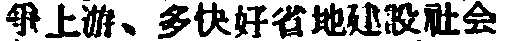爭上游、多快好省地建設社会
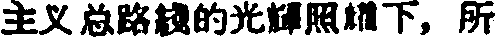主义总路綫的光輝照耀下，所
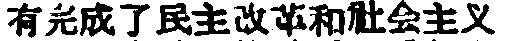有完成了民主改革和社会主义
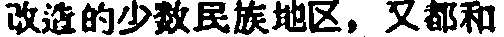改造的少数民族地区，又都和
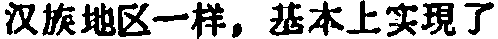汉族地区一样，基本上实現了
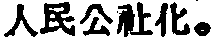人民公社化。
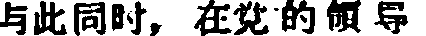与此同时，在党的領导
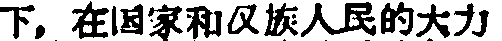下，在国家和汉族人民的大力
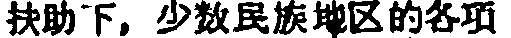扶助下，少数民族地区的各項
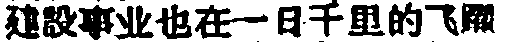建設事业也在一日千里的飞躍
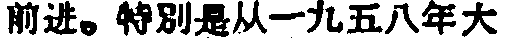前进。特別是从一九五八年大
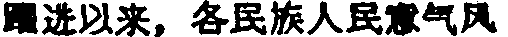躍进以来，各民族人民意气风
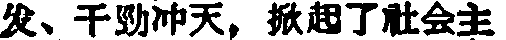发、干勁冲天，掀起了社会主
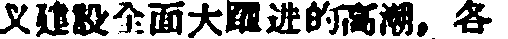义建設全面大躍进的高潮，各
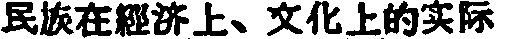民族在經济上、文化上的实际
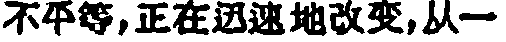不平等，正在迅速地改变，从一
